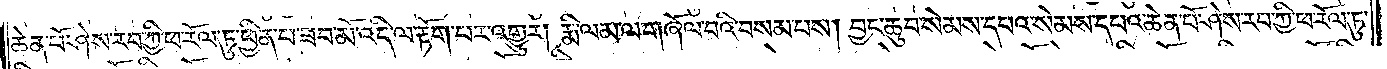ཆེན་པོ་ཤེས་རབ་ཀྱི་ཕ་རོལ་ཏུ་ཕྱིན་པ་ཟབ་མོ་འདི་ལ་རྟོག་པར་འགྱུར། རྨི་ལམ་ལ་གཞོལ་བའི་བསམ་པས། བྱང་ཆུབ་སེམས་དཔའ་སེམས་དཔའ་ཆེན་པོ་ཤེས་རབ་ཀྱི་ཕ་རོལ་ཏུ་
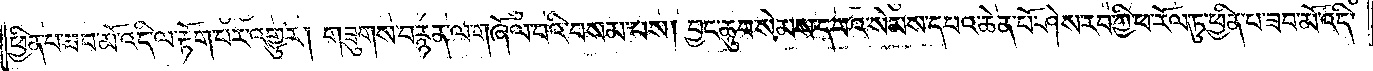ཕྱིན་པ་ཟབ་མོ་འདི་ལ་རྟོག་པར་འགྱུར། གཟུགས་བརྙན་ལ་གཞོལ་བའི་བསམ་པས། བྱང་ཆུབ་སེམས་དཔའ་སེམས་དཔའ་ཆེན་པོ་ཤེས་རབ་ཀྱི་ཕ་རོལ་ཏུ་ཕྱིན་པ་ཟབ་མོ་འདི་
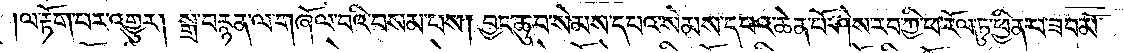ལ་རྟོག་པར་འགྱུར། སྒྲ་བརྙན་ལ་གཞོལ་བའི་བསམ་པས། བྱང་ཆུབ་སེམས་དཔའ་སེམས་དཔའ་ཆེན་པོ་ཤེས་རབ་ཀྱི་ཕ་རོལ་ཏུ་ཕྱིན་པ་ཟབ་མོ་
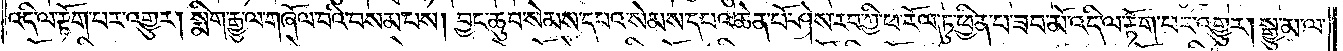འདི་ལ་རྟོག་པར་འགྱུར། །སྨིག་རྒྱུ་ལ་གཞོལ་བའི་བསམ་པས། བྱང་ཆུབ་སེམས་དཔའ་སེམས་དཔའ་ཆེན་པོ་ཤེས་རབ་ཀྱི་ཕ་རོལ་ཏུ་ཕྱིན་པ་ཟབ་མོ་འདི་ལ་རྟོག་པར་འགྱུར། སྒྱུ་མ་ལ་
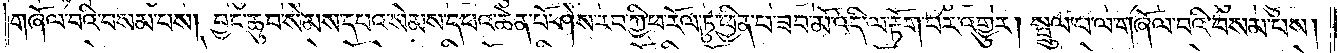གཞོལ་བའི་བསམ་པས། བྱང་ཆུབ་སེམས་དཔའ་སེམས་དཔའ་ཆེན་པོ་ཤེས་རབ་ཀྱི་ཕ་རོལ་ཏུ་ཕྱིན་པ་ཟབ་མོ་འདི་ལ་རྟོག་པར་འགྱུར། སྤྲུལ་པ་ལ་གཞོལ་བའི་བསམ་པས།
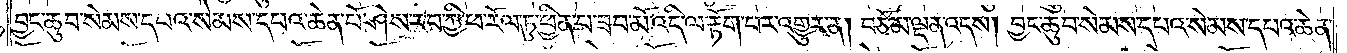བྱང་ཆུབ་སེམས་དཔའ་སེམས་དཔའ་ཆེན་པོ་ཤེས་རབ་ཀྱི་ཕ་རོལ་ཏུ་ཕྱིན་པ་ཟབ་མོ་འདི་ལ་རྟོག་པར་འགྱུར་ན། བཅོམ་ལྡན་འདས། བྱང་ཆུབ་སེམས་དཔའ་སེམས་དཔའ་ཆེན་
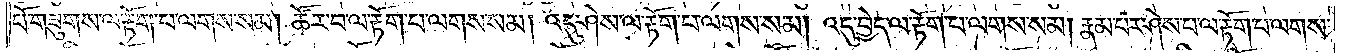པོ་གཟུགས་ལ་རྟོག་པ་ལགས་སམ། ཚོར་བ་ལ་རྟོག་པ་ལགས་སམ། འདུ་ཤེས་ལ་རྟོག་པ་ལགས་སམ། འདུ་བྱེད་ལ་རྟོག་པ་ལགས་སམ། རྣམ་པར་ཤེས་པ་ལ་རྟོག་པ་ལགས་
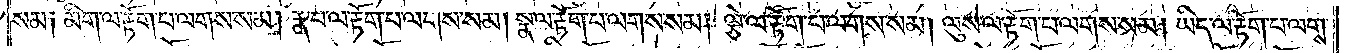སམ༑ མིག་ལ་རྟོག་པ་ལགས་སམ། རྣ་བ་ལ་རྟོག་པ་ལགས་སམ། སྣ་ལ་རྟོག་པ་ལགས་སམ། ལྕེ་ལ་རྟོག་པ་ལགས་སམ། ལུས་ལ་རྟོག་པ་ལགས་སམ། ཡིད་ལ་རྟོག་པ་ལགས་
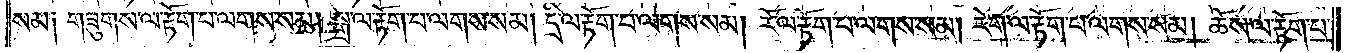སམ༑ གཟུགས་ལ་རྟོག་པ་ལགས་སམ། སྒྲ་ལ་རྟོག་པ་ལགས་སམ། དྲི་ལ་རྟོག་པ་ལགས་སམ། རོ་ལ་རྟོག་པ་ལགས་སམ། རེག་ལ་རྟོག་པ་ལགས་སམ། ཆོས་ལ་རྟོག་པ་
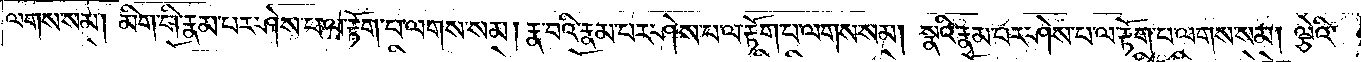ལགས་སམ། མིག་གི་རྣམ་པར་ཤེས་པ་ལ་རྟོག་པ་ལགས་སམ། རྣ་བའི་རྣམ་པར་ཤེས་པ་ལ་རྟོག་པ་ལགས་སམ། སྣའི་རྣམ་པར་ཤེས་པ་ལ་རྟོག་པ་ལགས་སམ། ལྕེའི་
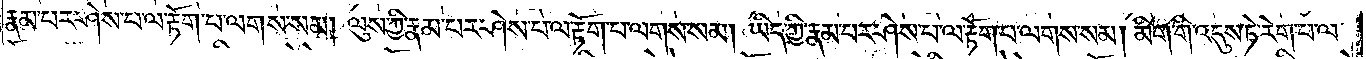རྣམ་པར་ཤེས་པ་ལ་རྟོག་པ་ལགས་སམ། ལུས་ཀྱི་རྣམ་པར་ཤེས་པ་ལ་རྟོག་པ་ལགས་སམ། ཡིད་ཀྱི་རྣམ་པར་ཤེས་པ་ལ་རྟོག་པ་ལགས་སམ། མིག་གི་འདུས་ཏེ་རེག་པ་ལ་
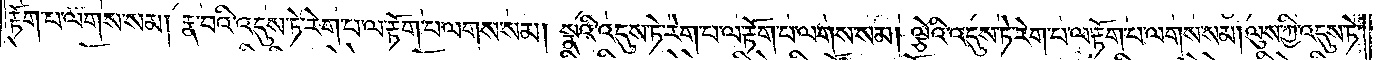རྟོག་པ་ལགས་སམ། རྣ་བའི་འདུས་ཏེ་རེག་པ་ལ་རྟོག་པ་ལགས་སམ། སྣའི་འདུས་ཏེ་རེག་པ་ལ་རྟོག་པ་ལགས་སམ། ལྕེའི་འདུས་ཏེ་རེག་པ་ལ་རྟོག་པ་ལགས་སམ། ལུས་ཀྱི་འདུས་ཏེ་
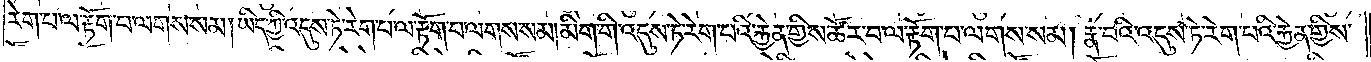རེག་པ་ལ་རྟོག་པ་ལགས་སམ། ཡིད་ཀྱི་འདུས་ཏེ་རེག་པ་ལ་རྟོག་པ་ལགས་སམ། མིག་གི་འདུས་ཏེ་རེག་པའི་རྐྱེན་གྱིས་ཚོར་བ་ལ་རྟོག་པ་ལགས་སམ། རྣ་བའི་འདུས་ཏེ་རེག་པའི་རྐྱེན་གྱིས་
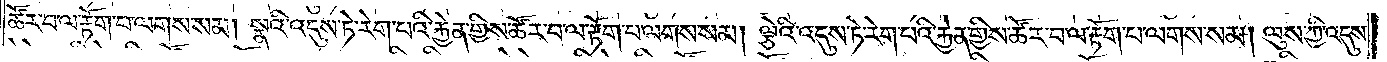ཚོར་བ་ལ་རྟོག་པ་ལགས་སམ། སྣའི་འདུས་ཏེ་རེག་པའི་རྐྱེན་གྱིས་ཚོར་བ་ལ་རྟོག་པ་ལགས་སམ། ལྕེའི་འདུས་ཏེ་རེག་པའི་རྐྱེན་གྱིས་ཚོར་བ་ལ་རྟོག་པ་ལགས་སམ། ལུས་ཀྱི་འདུས་
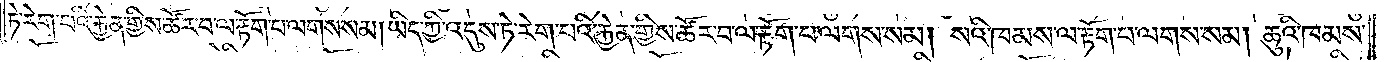ཏེ་རེག་པའི་རྐྱེན་གྱིས་ཚོར་བ་ལ་རྟོག་པ་ལགས་སམ། ཡིད་ཀྱི་འདུས་ཏེ་རེག་པའི་རྐྱེན་གྱིས་ཚོར་བ་ལ་རྟོག་པ་ལགས་སམ། སའི་ཁམས་ལ་རྟོག་པ་ལགས་སམ། ཆུའི་ཁམས་
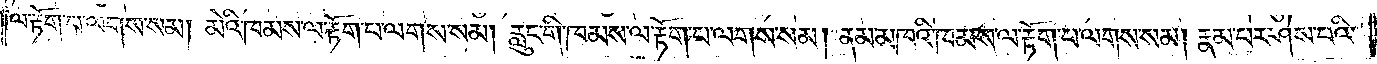ལ་རྟོག་པ་ལགས་སམ། མེའི་ཁམས་ལ་རྟོག་པ་ལགས་སམ། རླུང་གི་ཁམས་ལ་རྟོག་པ་ལགས་སམ། ནམ་མཁའི་ཁམས་ལ་རྟོག་པ་ལགས་སམ། རྣམ་པར་ཤེས་པའི་
